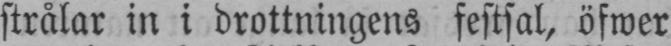strålar in i drottningens festsal, öfwer
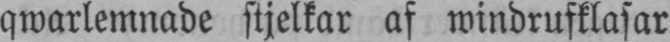qwarlemnade stjelkar af windrufklasar
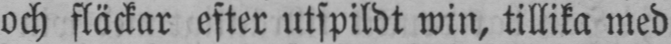och fläckar efter utspildt win, tillika med
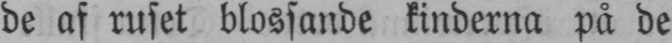de af ruset blossande kinderna på de
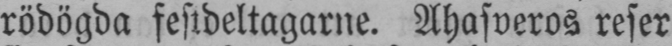rödögda festdeltagarne. Ahasveros reser
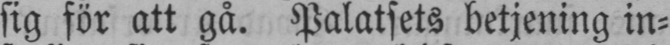sig för att gå. Palatsets betjening in-
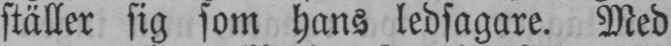ställer sig som hans ledsagare. Med
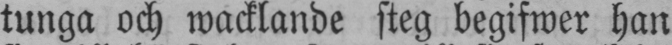tunga och wacklande steg begifwer han
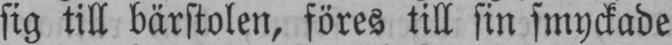sig till bärstolen, föres till sin smyckade
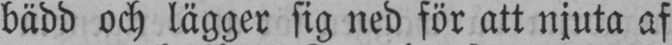bädd och lägger sig ned för att njuta af
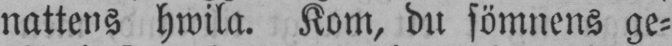nattens hwila. Kom, du sömnens ge-
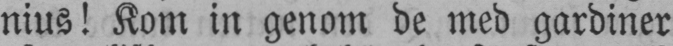nius! Kom in genom de med gardiner
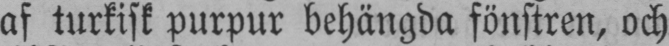af turkisk purpur behängda fönstren, och
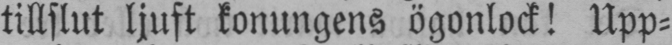tillslut ljuft konungens ögonlock! Upp-
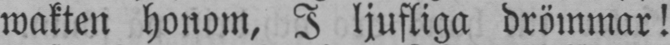wakten honom, I ljufliga drömmar!
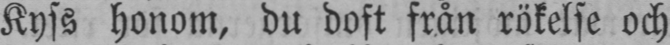Kyss honom, du doft från rökelse och
